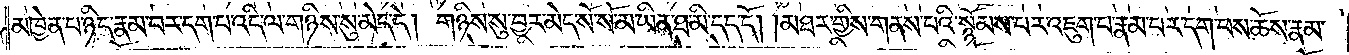མཁྱེན་པ་ཉིད་རྣམ་པར་དག་པ་འདི་ལ་གཉིས་སུ་མེད་དེ། གཉིས་སུ་བྱར་མེད་སོ་སོ་མ་ཡིན་ཐ་མི་དད་དོ། །མཐར་གྱིས་གནས་པའི་སྙོམས་པར་འཇུག་པ་རྣམ་པར་དག་པས་ཆོས་རྣམ་
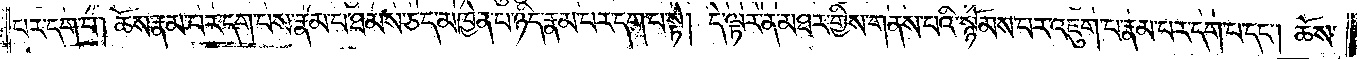པར་དག་པ། ཆོས་རྣམ་པར་དག་པས་རྣམ་པ་ཐམས་ཅད་མཁྱེན་པ་ཉིད་རྣམ་པར་དག་པ་སྟེ། དེ་ལྟར་ན་མཐར་གྱིས་གནས་པའི་སྙོམས་པར་འཇུག་པ་རྣམ་པར་དག་པ་དང༌། ཆོས་
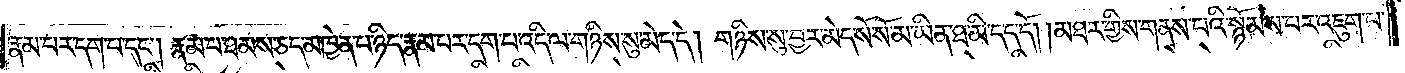རྣམ་པར་དག་པ་དང༌། རྣམ་པ་ཐམས་ཅད་མཁྱེན་པ་ཉིད་རྣམ་པར་དག་པ་འདི་ལ་གཉིས་སུ་མེད་དེ། གཉིས་སུ་བྱར་མེད་སོ་སོ་མ་ཡིན་ཐ་མི་དད་དོ། །མཐར་གྱིས་གནས་པའི་སྙོམས་པར་འཇུག་པ་
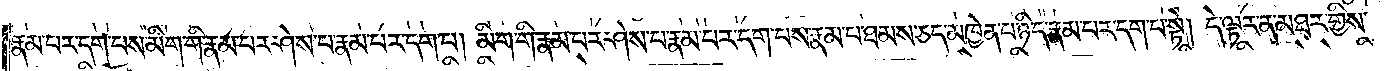རྣམ་པར་དག་པས་མིག་གི་རྣམ་པར་ཤེས་པ་རྣམ་པར་དག་པ། མིག་གི་རྣམ་པར་ཤེས་པ་རྣམ་པར་དག་པས་རྣམ་པ་ཐམས་ཅད་མཁྱེན་པ་ཉིད་རྣམ་པར་དག་པ་སྟེ། དེ་ལྟར་ན་མཐར་གྱིས་
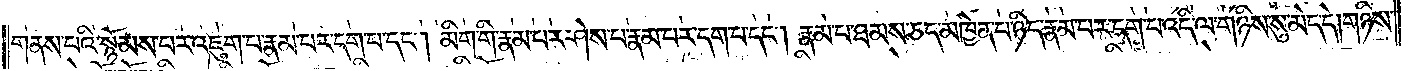གནས་པའི་སྙོམས་པར་འཇུག་པ་རྣམ་པར་དག་པ་དང༌། མིག་གི་རྣམ་པར་ཤེས་པ་རྣམ་པར་དག་པ་དང༌། རྣམ་པ་ཐམས་ཅད་མཁྱེན་པ་ཉིད་རྣམ་པར་དག་པ་འདི་ལ་གཉིས་སུ་མེད་དེ། གཉིས་
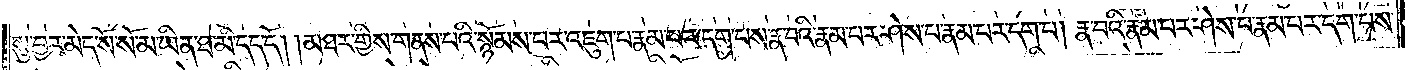སུ་བྱར་མེད་སོ་སོ་མ་ཡིན་ཐ་མི་དད་དོ། །མཐར་གྱིས་གནས་པའི་སྙོམས་པར་འཇུག་པ་རྣམ་པར་དག་པས་རྣ་བའི་རྣམ་པར་ཤེས་པ་རྣམ་པར་དག་པ། རྣ་བའི་རྣམ་པར་ཤེས་པ་རྣམ་པར་དག་པས་
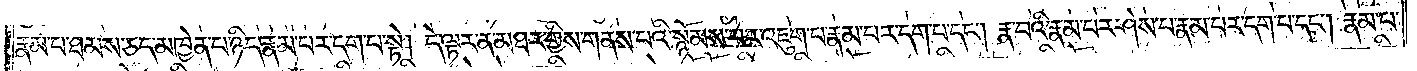རྣམ་པ་ཐམས་ཅད་མཁྱེན་པ་ཉིད་རྣམ་པར་དག་པ་སྟེ། དེ་ལྟར་ན་མཐར་གྱིས་གནས་པའི་སྙོམས་པར་འཇུག་པ་རྣམ་པར་དག་པ་དང༌། རྣ་བའི་རྣམ་པར་ཤེས་པ་རྣམ་པར་དག་པ་དང༌། རྣམ་པ་
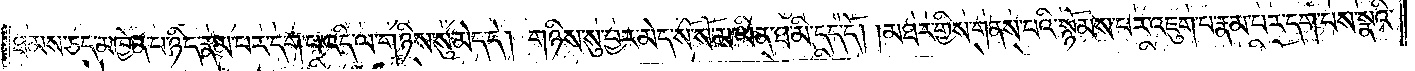ཐམས་ཅད་མཁྱེན་པ་ཉིད་རྣམ་པར་དག་པ་འདི་ལ་གཉིས་སུ་མེད་དེ། གཉིས་སུ་བྱར་མེད་སོ་སོ་མ་ཡིན་ཐ་མི་དད་དོ། །མཐར་གྱིས་གནས་པའི་སྙོམས་པར་འཇུག་པ་རྣམ་པར་དག་པས་སྣའི་
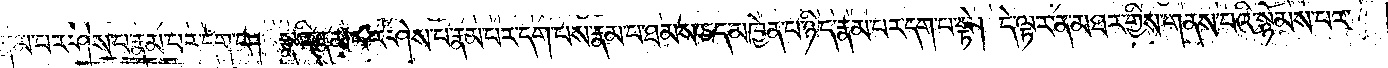རྣམ་པར་ཤེས་པ་རྣམ་པར་དག་པ། སྣའི་རྣམ་པར་ཤེས་པ་རྣམ་པར་དག་པས་རྣམ་པ་ཐམས་ཅད་མཁྱེན་པ་ཉིད་རྣམ་པར་དག་པ་སྟེ། དེ་ལྟར་ན་མཐར་གྱིས་གནས་པའི་སྙོམས་པར་
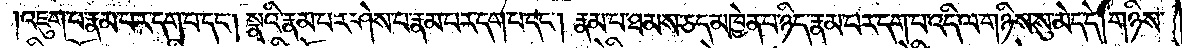འཇུག་པ་རྣམ་པར་དག་པ་དང༌། སྣའི་རྣམ་པར་ཤེས་པ་རྣམ་པར་དག་པ་དང༌། རྣམ་པ་ཐམས་ཅད་མཁྱེན་པ་ཉིད་རྣམ་པར་དག་པ་འདི་ལ་གཉིས་སུ་མེད་དེ། གཉིས་
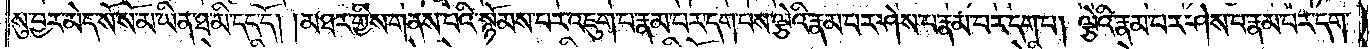སུ་བྱར་མེད་སོ་སོ་མ་ཡིན་ཐ་མི་དད་དོ། །མཐར་གྱིས་གནས་པའི་སྙོམས་པར་འཇུག་པ་རྣམ་པར་དག་པས་ལྕེའི་རྣམ་པར་ཤེས་པ་རྣམ་པར་དག་པ། ལྕེའི་རྣམ་པར་ཤེས་པ་རྣམ་པར་དག་
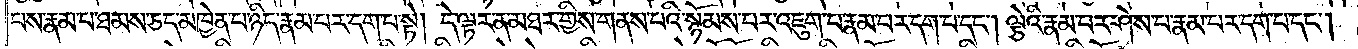པས་རྣམ་པ་ཐམས་ཅད་མཁྱེན་པ་ཉིད་རྣམ་པར་དག་པ་སྟེ། དེ་ལྟར་ན་མཐར་གྱིས་གནས་པའི་སྙོམས་པར་འཇུག་པ་རྣམ་པར་དག་པ་དང༌། ལྕེའི་རྣམ་པར་ཤེས་པ་རྣམ་པར་དག་པ་དང༌།
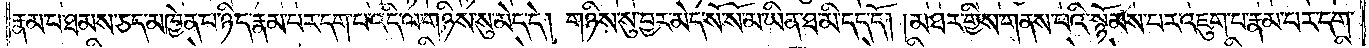རྣམ་པ་ཐམས་ཅད་མཁྱེན་པ་ཉིད་རྣམ་པར་དག་པ་འདི་ལ་གཉིས་སུ་མེད་དེ། གཉིས་སུ་བྱར་མེད་སོ་སོ་མ་ཡིན་ཐ་མི་དད་དོ། །མཐར་གྱིས་གནས་པའི་སྙོམས་པར་འཇུག་པ་རྣམ་པར་དག་
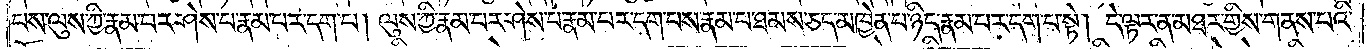པས་ལུས་ཀྱི་རྣམ་པར་ཤེས་པ་རྣམ་པར་དག་པ། ལུས་ཀྱི་རྣམ་པར་ཤེས་པ་རྣམ་པར་དག་པས་རྣམ་པ་ཐམས་ཅད་མཁྱེན་པ་ཉིད་རྣམ་པར་དག་པ་སྟེ། དེ་ལྟར་ན་མཐར་གྱིས་གནས་པའི་
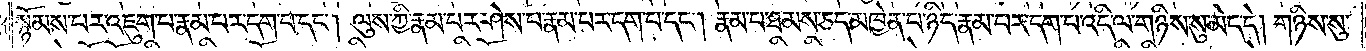སྙོམས་པར་འཇུག་པ་རྣམ་པར་དག་པ་དང༌། ལུས་ཀྱི་རྣམ་པར་ཤེས་པ་རྣམ་པར་དག་པ་དང༌། རྣམ་པ་ཐམས་ཅད་མཁྱེན་པ་ཉིད་རྣམ་པར་དག་པ་འདི་ལ་གཉིས་སུ་མེད་དེ། གཉིས་སུ་
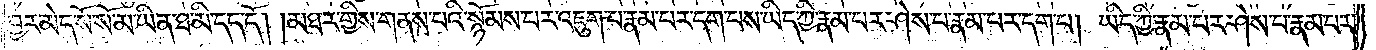བྱར་མེད་སོ་སོ་མ་ཡིན་ཐ་མི་དད་དོ། །མཐར་གྱིས་གནས་པའི་སྙོམས་པར་འཇུག་པ་རྣམ་པར་དག་པས་ཡིད་ཀྱི་རྣམ་པར་ཤེས་པ་རྣམ་པར་དག་པ། ཡིད་ཀྱི་རྣམ་པར་ཤེས་པ་རྣམ་པར་
